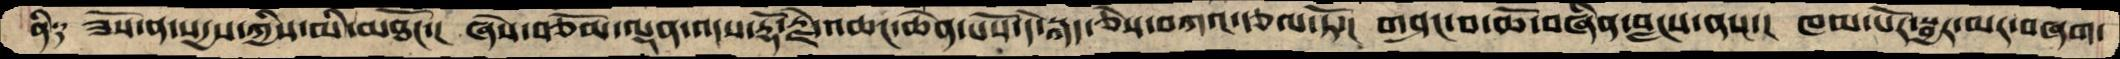ནི༑   ཟོས་ན་སདྱས་ཀྱིས་མི་མཐོང་།  ཞེས་བཅོམ་ལྡན་འདས་རྡོ་རྗེ་འཆང་ཆེན་པོས་དེ་སྐད་ཅེས་བཀའ་རྩལ་ཏོ་།  གཤང་བ་ཆོ་བཞིན་བླངས་ནས་།  ཁམ་པོར་སྦྱར་མར་བཞག་
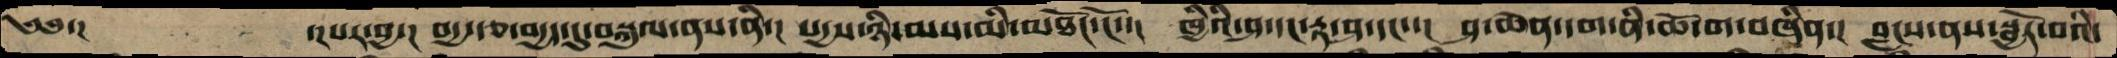༄༅་།          ་།པར་བྱ་།  བདྱ་རྩ་བདྱད་དུ་བསྐུལ་ནས་ནི་།  སདྱས་ཉི་མས་མི་མཐོང་ངོ་་།  ཁྱིའི་ཤ་དང་རྟ་ཤ་དང་་།  ཤ་ཆེན་དག་ནི་ཆོ་ག་བཞིན་།  བླངས་ནས་སྦྱོར་བའི་
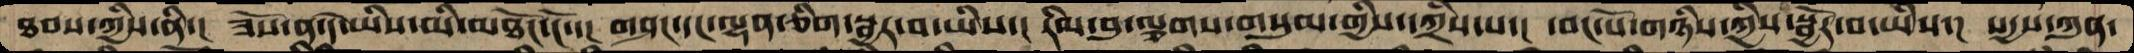ཐབས་ཀྱིས་ནི་།  ཟོས་ན་དེ་ཡིས་མི་མཐོང་ངོ་་།  གཤང་དང་ལྷན་ཅིག་སྦྱར་བ་ཡིས་།  རིམ་བུ་ལྕགས་གསུམ་གྱིས་དཀྲིས་པ་།  དབང་པོ་གཉིས་ཀྱིས་སྦྱོར་བ་ཡིས་།  སདྱས་ཀུན་
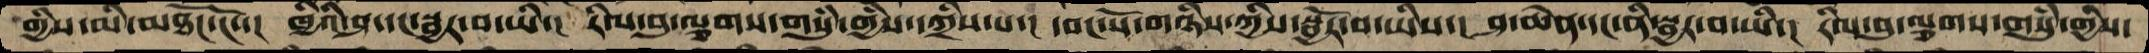གྱིས་མི་མཐོང་ངོ་་།  ཁྱིའི་ཤ་དང་སྦྱར་བ་ཡི་།  རིལ་བུ་ལྕགས་གསུཾ་གྱིས་དཀྲིས་པ་།  དབང་པོ་གཉིས་ཀྱིས་སྦྱོར་བ་ཡིས་།  ཤ་ཆེན་དང་ནི་སྦྱར་བ་ཡི་།  རིལ་བུ་ལྕགས་གསུཾ་གྱིས་
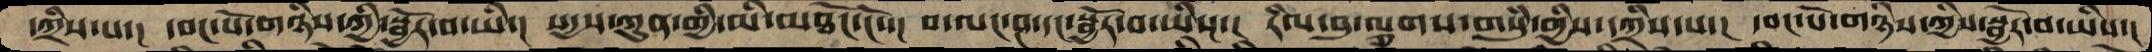དཀྲིས་པ་།  དབང་པོ་གཉིས་ཀྱི་སྦྱོར་བ་ཡི་།  སདྱས་ཀུན་གྱི་མི་མཐོང་ངོ་་།  པ་ལང་ཤ་དང་སྦྱོར་བ་ཡིས་།  རིལ་བུ་ལྕགས་གསུཾ་གྱིས་དཀྲིས་པ་།  དབང་པོ་གཉིས་ཀྱིས་སྦྱོར་བ་ཡིས་།
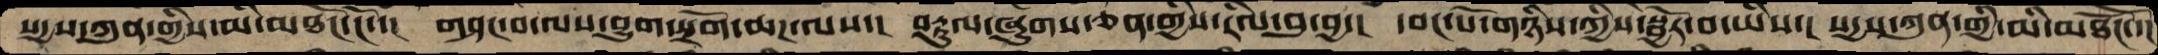སདྱས་ཀུན་གྱིས་མི་མཐོང་ངོ་་།  གཤང་བ་ལས་བྱུག་སྲོག་ཆཌ་ལས་།  བརྟུལ་ཞུགས་ཅན་གྱིས་རིལ་བུ་བྱ་།  དབང་པོ་གཉིས་ཀྱིས་སྦྱོར་བ་ཡིས་།  སདྱས་ཀུན་གྱི་མི་མཐོངོ་་།
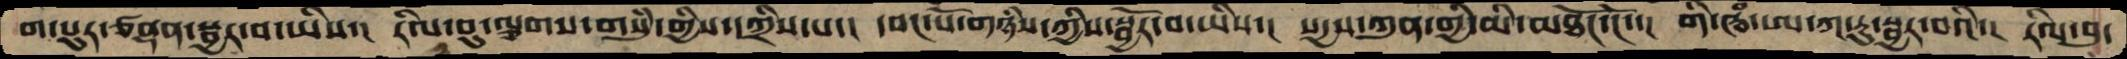ག་པུར་ཙནྡན་སྦྱར་བ་ཡིས་།   རིལ་བུ་ལྕགས་གསུཾ་གྱིས་དཀྲིག་པ་།  དབང་པོ་གཉིས་ཀྱིས་སྦྱོར་བ་ཡིས་།  སདྱས་ཀུན་གྱི་མི་མཐོང་ངོ་་།  གི་ཝཾ་ཨ་ཀ་རུ་སྦྱར་བའི་།  རིལ་བུ་
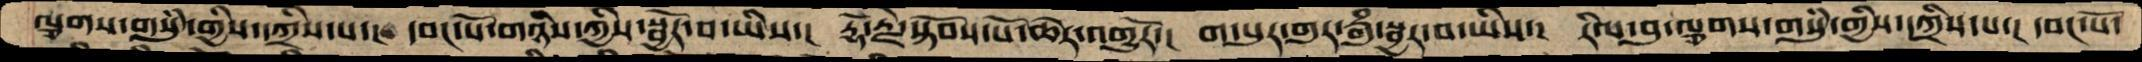ལྕགས་གསུཾ་གྱིས་དཀྲིས་པ་།  དབང་པོ་གཉིས་ཀྱིས་སྦྱོར་བ་ཡིས་།  རྡོ་རྗེ་སྟོབས་པོ་ཆེར་འགྱུརོ་།  ག་པུར་གུར་རྒུཾ་སྦྱར་བ་ཡིས་།  རིལ་བུ་ལྕགས་གསུཾ་གྱིས་དཀྲིས་པ་།  དབང་པོ་
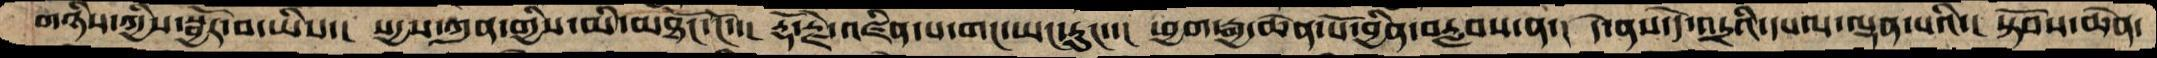གཉིས་ཀྱིས་སྦྱོར་བ་ཡིས་།  སདྱས་ཀུན་གྱིས་མི་མཐོང་ངོ་་།  རྡོ་རྗེ་འཛིན་པ་གང་ཡང་རུང་་།  ཕྱག་རྒྱ་ཆེན་པོ་བྱིན་བརླབས་ན་།  དེ་ནས་དེ་འདྲའི་དཔལ་ལྡན་པའི་།  སྟོབས་ཆེན་
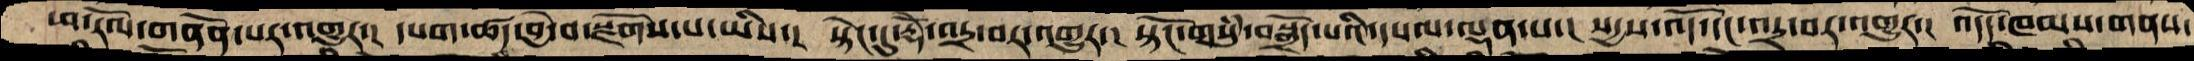ཕ་རོལ་གནོན་པར་འགྱུར་།  དཔག་ཚད་བྱེ་བ་སྫོགས་པ་ཡིས་།  སྟེང་དུ་རྡོེ་འདྲ་བར་འགྱུར་།  སྟོང་གསུཾ་བསྒྲོད་པའི་དཔལ་ལྡན་པ་།  སདྱས་འོད་དང་འདྲ་བར་འགྱུར་།  འདོད་ཁམས་གནས་
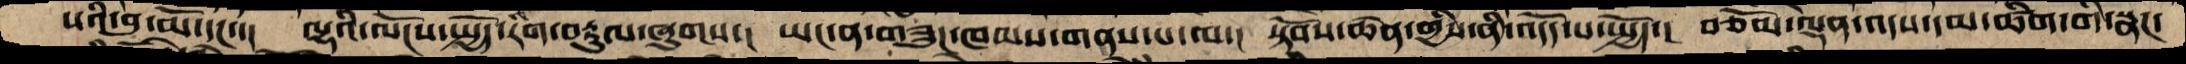པའི་བུ་མོ་དང་་།  ལྷའི་ལོངས་སྤྱོད་རིག་བརྟུལ་ཞུགས་།  ཡང་ན་གཟུཌ་ཁམས་གནས་པ་ལ་།  སྟོབས་ཆེན་གྱིས་ནི་འདོད་པ་སྤྱོད་།  བཅོམ་ལྡན་འདས་དམ་ཚིག་གི་སྣང་
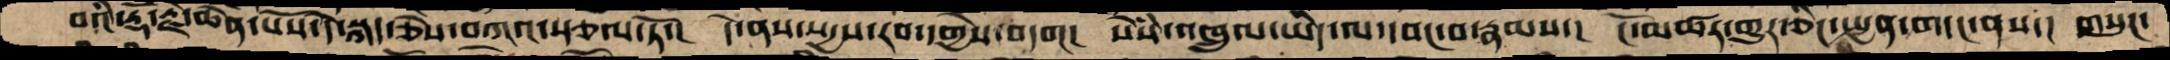བའི་རྡོ་རྗེ་ཆེན་པོས་དེ་སྐད་ཅེས་བཀའ་སྩལ་ཏོ་།  དེ་ནས་སདྱས་རབ་དགྱེས་བདག།  སེཾས་འཁྲུལ་ཡིད་ལ་དབང་བ་རྣམས་།  ངོ་མཚར་གྱུར་ཅིང་སྤྱན་གདང་ནས་།  གསུང་
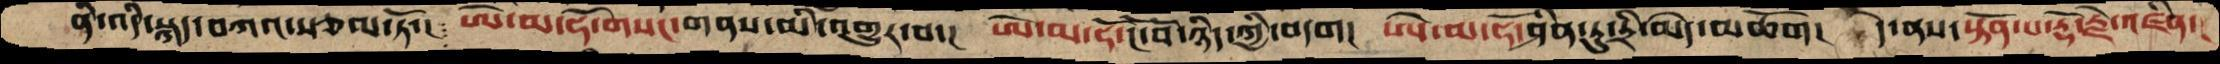ནི་འདི་སྐད་བཀའ་སྩལ་ཏོ་།  ཨེ་མ་ཧོ་གསང་གནས་མི་འགྱུར་བ་།  ཨེ་མ་ཧོ་ངོ་བོ་ཉིད་ཀྱི་བདག།  ཨེ་མ་ཧོ་ཤིན་ཏུ་དྲི་མེད་མཆོག།  དེ་ནས་སྟོན་པ་རྡོ་རྗེ་འཛིན་།
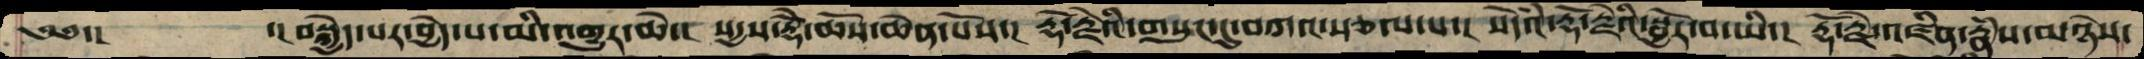༄༅་།         ་། བསྐྱེད་པར་བྱེད་པ་མི་འགྱུར་ཆེ་།  སདྱས་རྡོེ་ཆོས་ཆེན་པོས་།  རྡོ་རྗེའི་གསུང་དུ་བཀའ་སྩལ་པ་།  སེཾདའ་རྡོ་རྗེའི་སྦྱོར་བ་ཡི་།  རྡོ་རྗེ་འཛིན་རྣཾས་མཉེས་
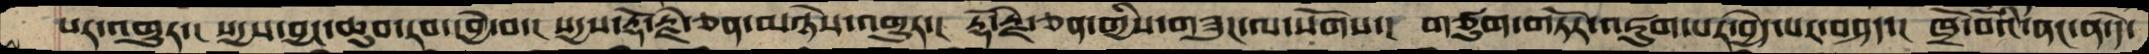པར་འགྱུར་།  སདྱས་བྱང་ཆུབ་རབ་དབྱེ་བ་།  སདྱས་རྡོ་རྗེ་ཅན་མཉེས་འགྱུར་།  རྡོ་རྗེ་ཅན་གྱིས་གཟུཌ་ལ་སོགས་།  གཙུག་གཏོར་འཇུག་པར་བྱེད་པར་བཤད་།  ཁྲོ་བོའི་ནང་ན་དེ་
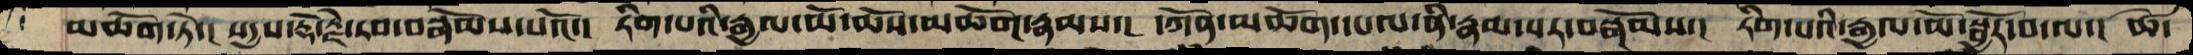མཆོག་ཏེ་།  སདྱས་རྡོ་རྗེ་རབ་བསྒོམས་པའོ་།  རིག་པའི་རྒྱལ་མོ་ཆོས་མཆོག་རྣམས་།  དཀོན་མཆོག་དཔལ་ནི་རྣམ་པར་བསྒོམས་།  རིག་པའི་རྒྱལ་མོ་སྦྱོར་བ་ལ་།  ཚེ་
